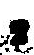2
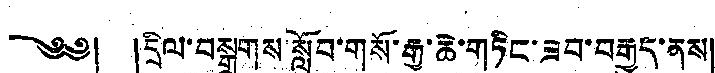༄༅། །དྲིལ་བསྒྲགས་སློབ་གསོ་རྒྱ་ཆེ་གཏིང་ཟབ་བརྒྱུད་ནས།
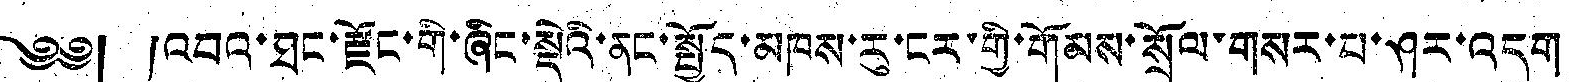༄༅། །འབའ་ཐང་རྫོང་གི་ཞིང་སྡེའི་ནང་སྤྱོད་མཁས་རུ་ངར་གྱི་གོམས་སྲོལ་གསར་པ་ཤར་འདུག
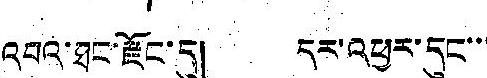འབའ་ཐང་རྫོང་དུ། དར་འཕྱར་དུང་་་
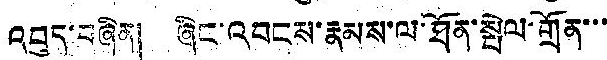འབུད་བཞིན། ཞིང་འབངས་རྣམས་ལ་ཐོན་སྤེལ་གྲོན་་་
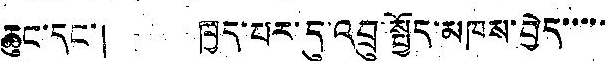ཆུང་དང་། ཁྱད་པར་དུ་འབྲུ་སྤྱོད་མཁས་བྱེད་་་་་
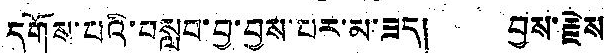དགོས་པའི་བསླབ་བྱ་བྱས་པར་མ་ཟད། བྱས་རྗེས་
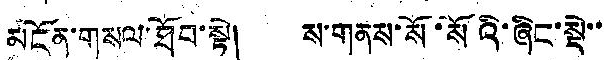མངོན་གསལ་ཐོབ་སྟེ། ས་གནས་སོ་སོའི་ཞིང་སྡེ་་་
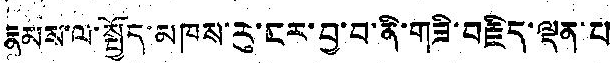རྣམས་ལ་སྤྱོད་མཁས་རུ་ངར་བྱ་བ་ནི་གཟི་བརྗིད་ལྡན་པ
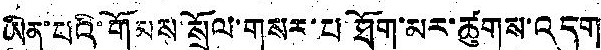ཡིན་པའི་གོམས་སྲོལ་གསར་པ་ཐོག་མར་ཚུགས་འདུག
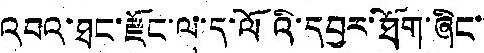འབའ་ཐང་རྫོང་ལ་ད་ལོའི་དབྱར་ཐོག་ཞིང་་
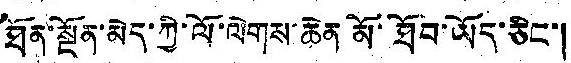ཐོན་སྔོན་མེད་ཀྱི་ལོ་ལེགས་ཆེན མོ་ཐོབ་ཡོད་ཅིང་།
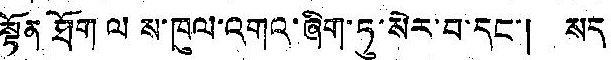སྟོན ཐོག ལ ས་ཁུལ་འགའ་ཞིག་ཏུ་སེར་བ་དང་། སད
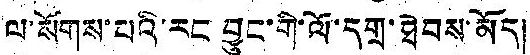ལ་སོགས་པའི་རང བྱུང་གི་ལོ་དགྲ་ཐེབས་མོད།
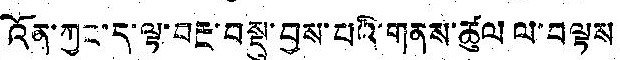འོན་ཀྱང་ད་ལྟ་བརྔ་བསྡུ་བྱས་པའི་གནས་ཚུལ ལ་བལྟས
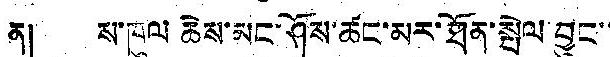ན། ས་ཁུལ ཆེས་མང་ཤོས་ཚང་མར་ཐོན་སྤེལ བྱུང་་
